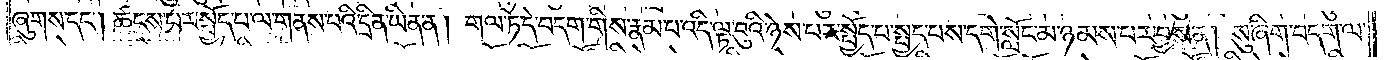ཞུགས་དང༌། ཚངས་པར་སྤྱོད་པ་ལ་གནས་པའི་དྲིན་ཡིན་ན། གལ་ཏེ་དེ་བདག་གིས་རྣམ་པ་འདི་ལྟ་བུའི་ཉེས་པར་སྤྱོད་པ་སྤྱད་པས་དགེ་སློང་མ་ཉམས་པར་བྱས་ནས། སུ་ཞིག་བདག་ལ་
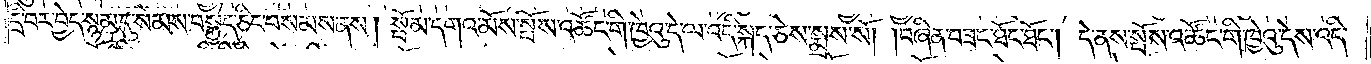དྲི་བར་བྱེད་སྙམ་དུ་སེམས་བསྐྱེད་ཅིང་བསམས་ནས། སྤོམ་དགའ་མོས་སྤོས་འཚོང་གི་ཁྱེའུ་དེ་ལ་འདི་སྐད་ཅེས་སྨྲས་སོ། །བཞིན་བཟང་ཐོང་ཐོང༌། དེ་ནས་སྤོས་འཚོང་གི་ཁྱེའུ་དེས་འདི་
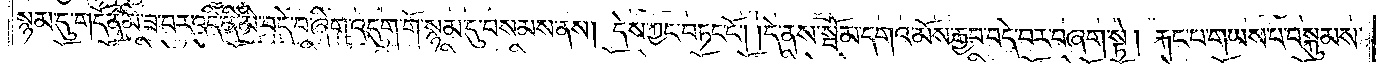སྙམ་དུ་གདོན་མི་ཟ་བར་འདི་ནི་མི་བདེ་བ་ཞིག་འདུག་གོ་སྙམ་དུ་བསམས་ནས། དེས་ཀྱང་བཏང་ངོ༌། དེ་ནས་སྤོམ་དགའ་མོས་རྒྱབ་བདེ་བར་བཞག་སྟེ། རྐང་པ་གཡས་པ་བསྐུམས་
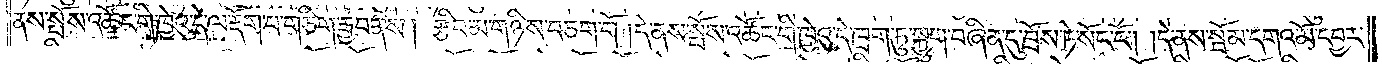ནས་སྤོས་འཚོང་གི་ཁྱེའུ་དེ་ལ་རྡོག་པ་གཅིག་རྒྱབ་ནས། རྩིབ་མ་གཉིས་བཅག་གོ །དེ་ནས་སྤོས་འཚོང་གི་ཁྱེའུ་དེ་ཁྲག་ཏུ་སྐྱུག་བཞིན་དུ་བྲོས་ཏེ་སོང་ངོ༌། །དེ་ནས་སྦོམ་དགའ་མོ་དབྱར་
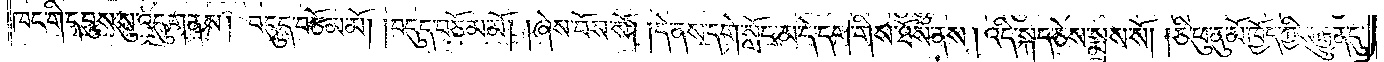ཁང་གི་དབུས་སུ་འདུག་ནས། བདུད་བཅོམ་མོ། །བདུད་བཅོམ་མོ། །ཞེས་བོས་སོ། །དེ་ནས་དགེ་སློང་མ་དེ་དག་གིས་ཐོས་ནས། འདི་སྐད་ཅེས་སྨྲས་སོ། །ཅི་ཕུ་ནུ་མོ་ཁྱོད་ཀྱིས་རྒྱུན་དུ་
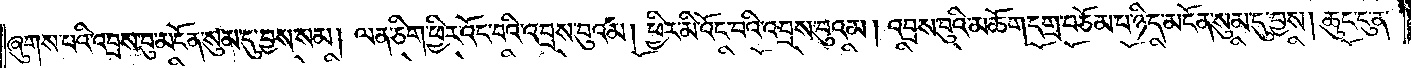ཞུགས་པའི་འབྲས་བུ་མངོན་སུམ་དུ་བྱས་སམ། ལན་ཅིག་ཕྱིར་འོང་བའི་འབྲས་བུའམ། ཕྱིར་མི་འོང་བའི་འབྲས་བུའམ། འབྲས་བུའི་མཆོག་དགྲ་བཅོམ་པ་ཉིད་མངོན་སུམ་དུ་བྱས། ཆུང་ངུ་ན་
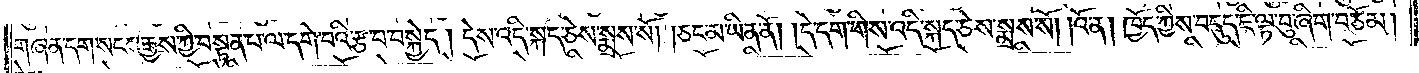གཞན་དག་སངས་རྒྱས་ཀྱི་བསྟན་པ་ལ་དགེ་བའི་རྩ་བ་བསྐྱེད། དེས་འདི་སྐད་ཅེས་སྨྲས་སོ། །ཅང་མ་ཡིན་ནོ། །དེ་དག་གིས་འདི་སྐད་ཅེས་སྨྲས་སོ། །འོ་ན། ཁྱོད་ཀྱིས་བདུད་ཇི་ལྟ་བུ་ཞིག་བཅོམ།
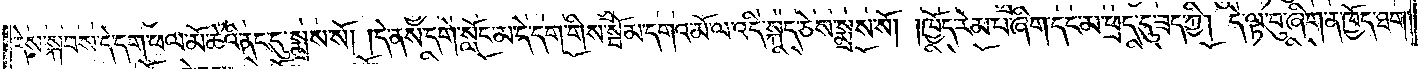དེས་སྐབས་དེ་དག་ཕལ་མོ་ཆེའི་ནང་དུ་སྨྲས་སོ། །དེ་ནས་དགེ་སློང་མ་དེ་དག་གིས་སྦོམ་དགའ་མོ་ལ་འདི་སྐད་ཅེས་སྨྲས་སོ། །ཁྱོད་རེམ་པ་ཞིག་དང་མ་ཕྲད་དུ་ཟད་ཀྱི། དེ་ལྟ་བུ་ཞིག་ན་ཁྱོད་ཐག་
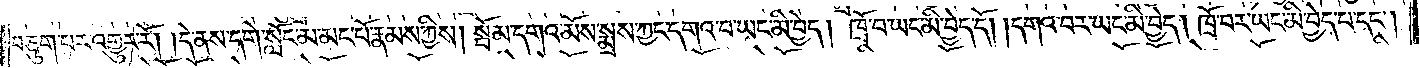བཅུག་པར་འགྱུར་རོ། །དེ་ནས་དགེ་སློང་མ་མང་པོ་རྣམས་ཀྱིས། སྦོམ་དགའ་མོས་སྨྲས་ཀྱང་དགའ་བ་ཡང་མི་བྱེད། ཁྲོ་བ་ཡང་མི་བྱེད་དོ། །དགའ་བར་ཡང་མི་བྱེད། ཁྲོ་བར་ཡང་མི་བྱེད་པ་དང༌།
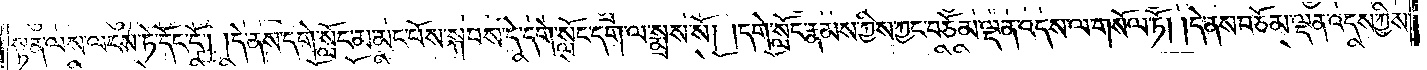སྟན་ལས་ལངས་ཏེ་དོང་ངོ༌། །དེ་ནས་དགེ་སློང་མ་མང་པོས་སྐབས་དེ་དགེ་སློང་དག་ལ་སྨྲས་སོ། །དགེ་སློང་རྣམས་ཀྱིས་ཀྱང་བཅོམ་ལྡན་འདས་ལ་གསོལ་ཏོ། །དེ་ནས་བཅོམ་ལྡན་འདས་ཀྱིས་
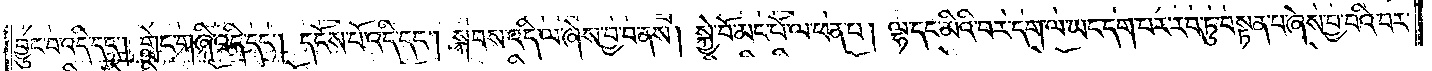བྱུང་བ་འདི་དང༌། གླེང་གཞི་འདི་དང༌། དངོས་པོ་འདི་དང༌། སྐབས་འདི་ལ་ཞེས་བྱ་བ་ནས། སྐྱེ་བོ་མང་པོ་ལ་ཕན་པ། ལྷ་དང་མིའི་བར་དག་ལ་ཡང་དག་པར་རབ་ཏུ་བསྟན་པ་ཞེས་བྱ་བའི་བར་
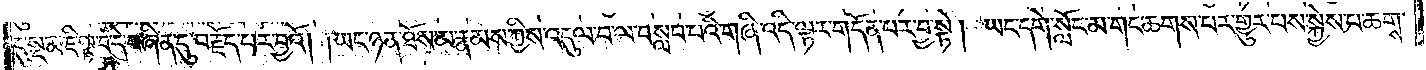དུ་སྔ་མ་ཇི་ལྟ་བ་དེ་བཞིན་དུ་བརྗོད་པར་བྱའོ། །ཡང་ཉན་ཐོས་མ་རྣམས་ཀྱིས་འདུལ་བ་ལ་བསླབ་པའི་གཞི་འདི་ལྟར་གདོན་པར་བྱ་སྟེ། ཡང་དགེ་སློང་མ་གང་ཆགས་པར་གྱུར་པས་སྐྱེས་པ་ཆགས་
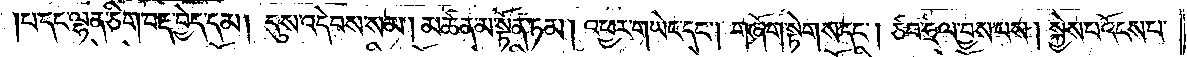པ་དང་ལྷན་ཅིག་བརྡ་བྱེད་དམ། དུས་འདེབས་སམ། མཚན་མ་སྟོན་ཏམ། འཕྱར་གཡེང་དང༌། གཞོག་སྟེགས་དང༌། ཙབ་ཧྲལ་བྱས་པས། སྐྱེས་པ་འོངས་པ་
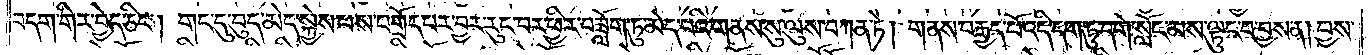བདག་གིར་བྱེད་ཅིང༌། གང་དུ་བུད་མེད་སྐྱེས་པས་བགྲོད་པར་བྱར་རུང་བར་ཕྱིར་བཟློག་ཏུ་མེད་པའི་གནས་སུ་ལུས་བཀན་ཏེ། གནས་བརྒྱད་པོ་འདི་དག་ཏུ་དགེ་སློང་མས་ལྟུང་བ་བྱས་ན། བྱས་
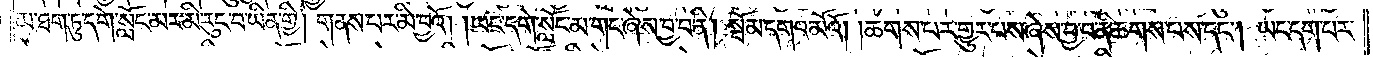མ་ཐག་ཏུ་དགེ་སློང་མར་མི་རུང་བ་ཡིན་གྱི། གནས་པར་མི་བྱའོ། །ཡང་དགེ་སློང་མ་གང་ཞེས་བྱ་བ་ནི། སྦོམ་དགའ་མོའོ། །ཆགས་པར་གྱུར་པས་ཞེས་བྱ་བ་ནི་ཆགས་པས་དང༌། ཡང་དག་པར་
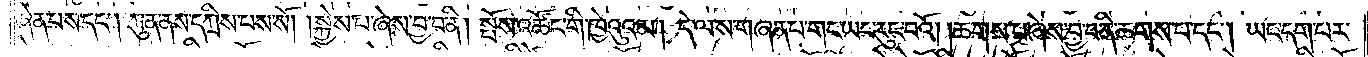ཞེན་པས་དང༌། ཀུན་ནས་དཀྲིས་པས་སོ། །སྐྱེས་པ་ཞེས་བྱ་བ་ནི། སྤོས་འཚོང་གི་ཁྱེའུའམ། དེ་ལས་གཞན་པ་གང་ཡང་རུང་བའོ། །ཆགས་པ་ཞེས་བྱ་བ་ནི་ཆགས་པ་དང༌། ཡང་དག་པར་
